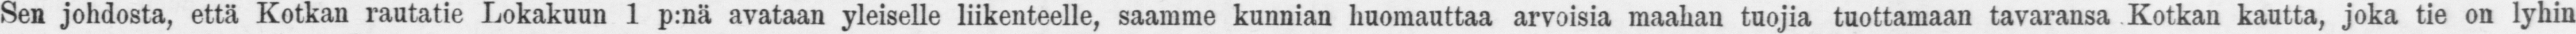Sen johdosta, että Kotkan rautatie Lokakuun 1 p:nä avataan yleiselle liikenteelle, saamme kunnian huomauttaa arvoisia maahan tuojia tuottamaan tavaransa Kotkan kautta, joka tie on lyhin
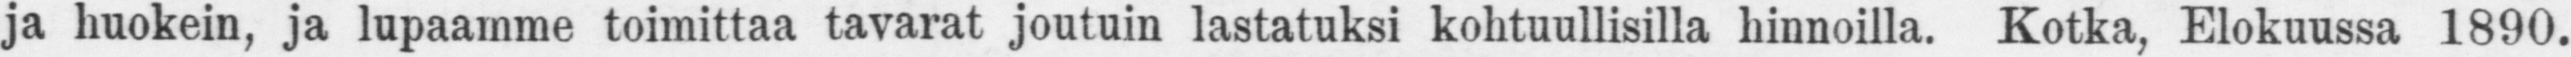ja huokein, ja lupaamme toimittaa tavarat joutuin lastatuksi kohtuullisilla hinnoilla. Kotka, Elokuussa 1890.
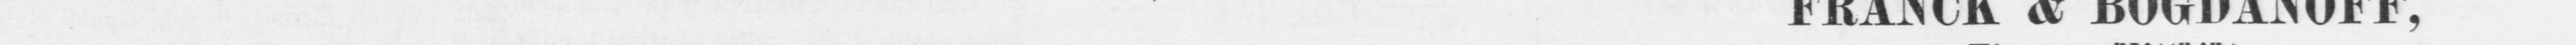FRANCK & BOGDANOFF,
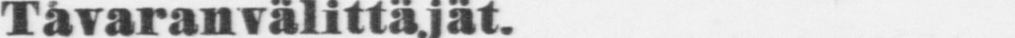Tavaranvälittäjät.
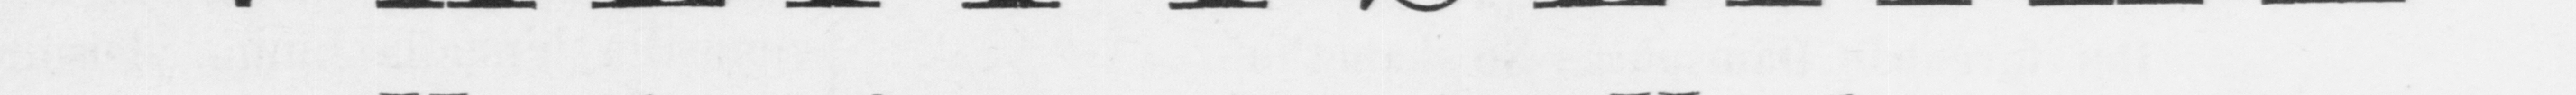VÄLITYSLIIKE
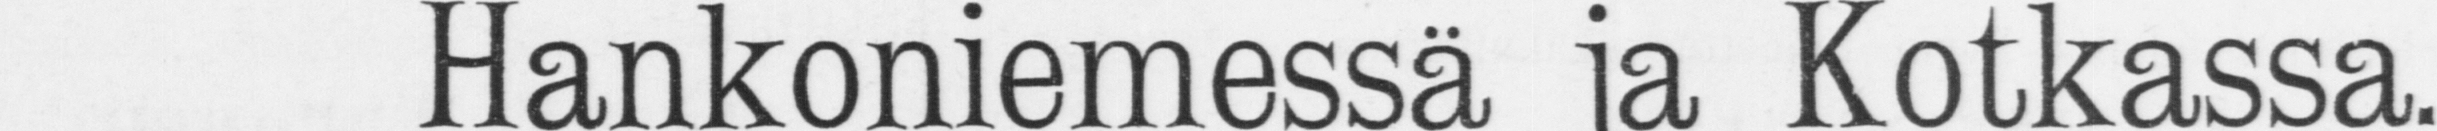Hankoniemessä ja Kotkassa.
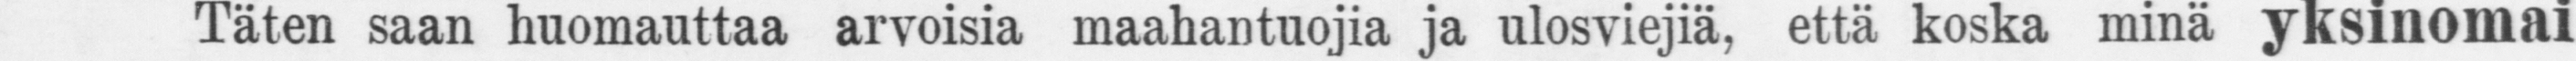T äten saan huomauttaa arvoisia maahantuojia ja ulosviejiä, että koska minä yksinomai-
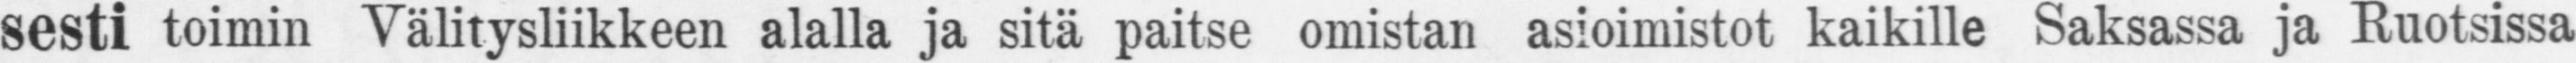sesti toimin Välitysliikkeen alalla ja sitä paitse omistan asioimistot kaikille Saksassa ja Ruotsissa
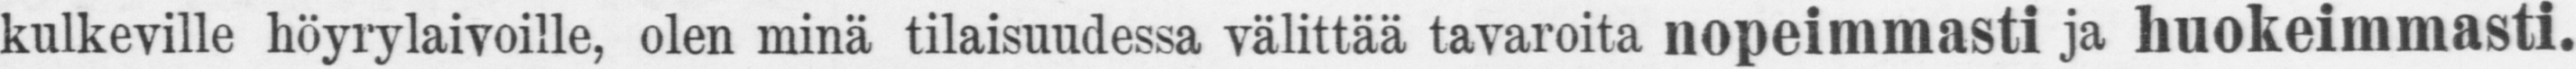kulkeville höyrylaivoille, olen minä tilaisuudessa välittää tavaroita nopeimmasti ja huokeimmasti.
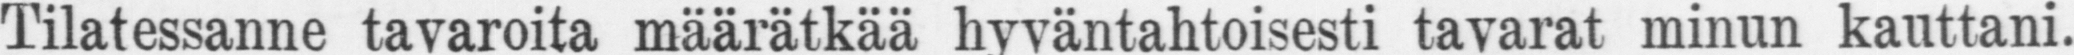Ti1atessanne tavaroita määrätkää tavarat minun kauttani.
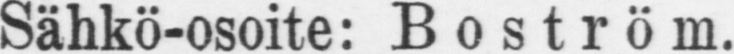Sähkö-osoite: Boström.
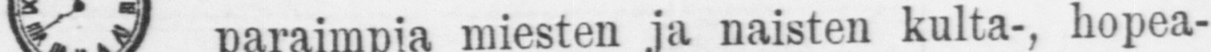paraimpia miesten ja naisten kulta-, hopea- ja nikkeli-tasku-
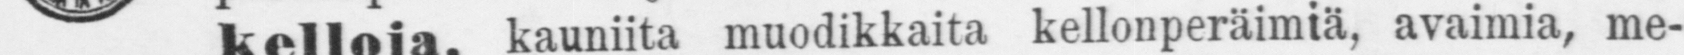kelloja, kauniita muodikkaita kellonperäimiä, avaimia, Me-
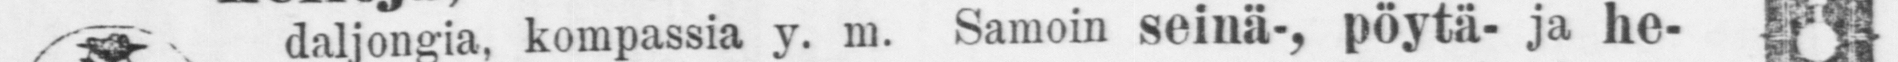daljongia, kompassia y. m. Samoin seinä-, pöytä- ja he-
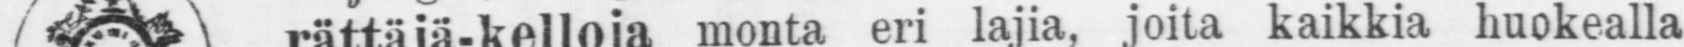rättäjä-kelloja monta eri lajia, joita kaikkia huokealla
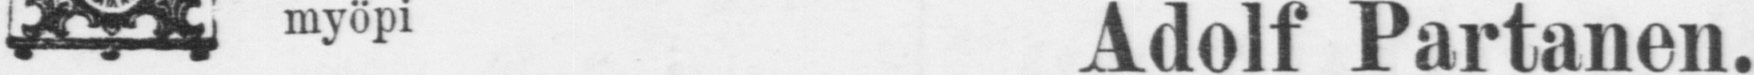Adolf Partanen.
